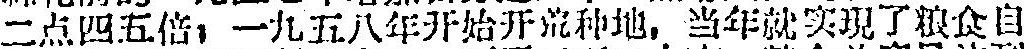二点四五倍；一九五八年开始开荒种地，当年就实現了粮食自
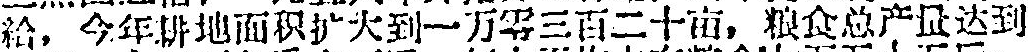給，今年耕地面积扩大到一万零三百二十亩，粮食总产量达到
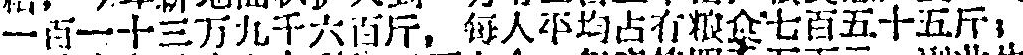一百一十三万九千六百斤，每人平均占有粮食七百五十五斤，
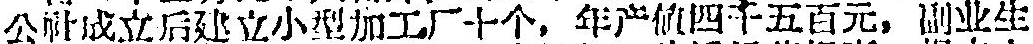公社成立后建立小型加工厂十个，年产值四千五百元，副业生
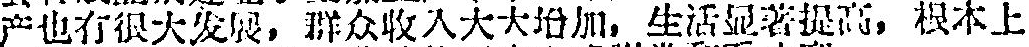产也有很大发展，群众收入大大增加，生活显著提高，根本上
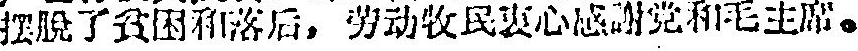摆脫了貧困和落后，劳动牧民衷心感謝党和毛主席。
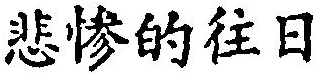悲惨的往日
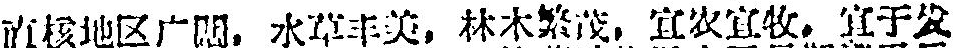直核地区广闊，水草丰美，林木繁茂，宜农宜牧，宜于发
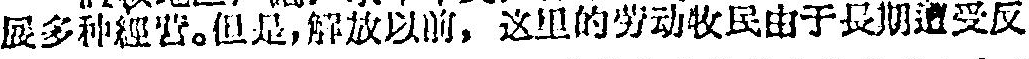展多和經营。但是，解放以前，这里的劳动牧民由于長期遭受反
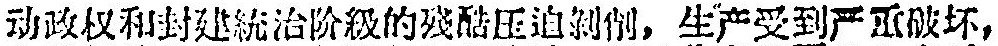动政权和封建統治阶級的殘酷压迫剝削，生产受到严重破坏，
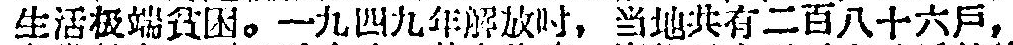生活极端貧困。一九四九年解放时，当地共有二百八十六戶，
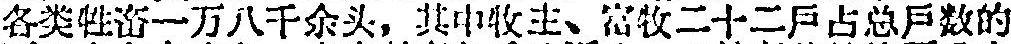各类牲畜一万八千余头，其中牧主、富牧二十二戶占总戶数的
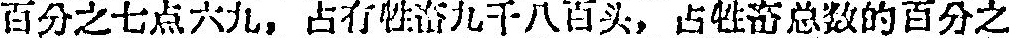百分之七点六九，占有牲畜九千八百头，占牲畜总数的百分之
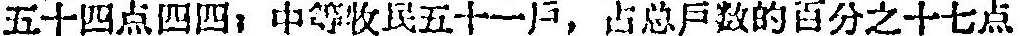五十四点四四；中等牧民五十一戶，占总戶数的百分之十七点
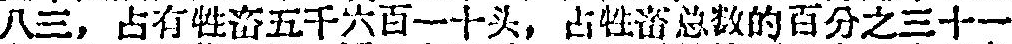八三，占有牲畜五千六百一十头，占牲畜总数的百分之三十一
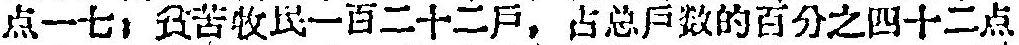点一七；貧苦牧民一百二十二戶，占总戶数的百分之四十二点
